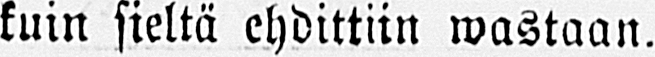kuin sieltä ehdittiin wastaan.
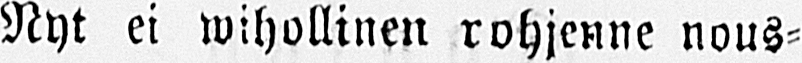Nyt ei wihollinen rohjenne nous-
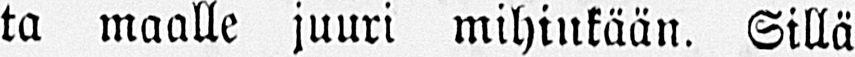ta maalle juuri mihinkään. Sillä
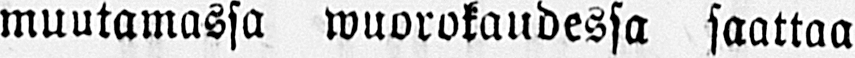muutamassa wuorokaudessa saattaa
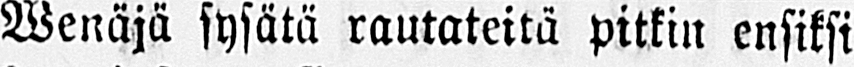Wenäjä sysätä rautateitä pitkin ensiksi
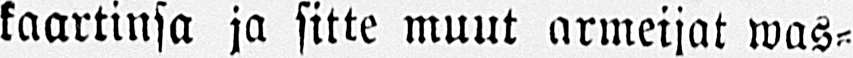kaartinsa ja sitte muut armeijat was-
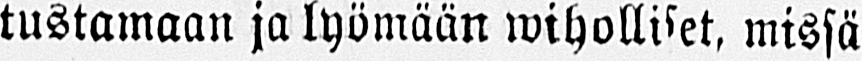tustamaan ja lyömään wiholliset, missä
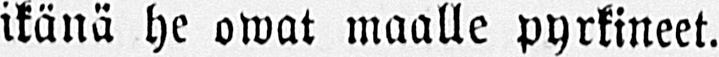ikänä he owat maalle pyrkineet.
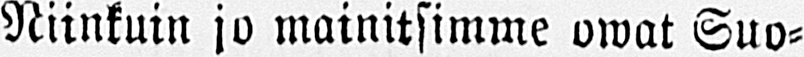Niinkuin jo mainitsimme owat Suo-
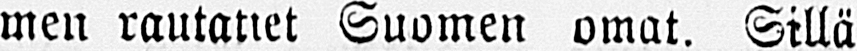men rautatiet Suomen owat. Sillä
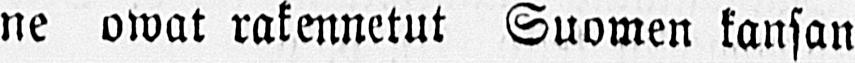ne owat rakennetut Suomen kansan
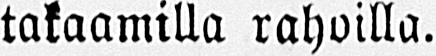takaamilla rahoilla.
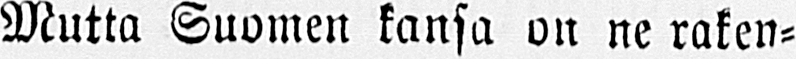Mutta Suomen kansa on ne raken-
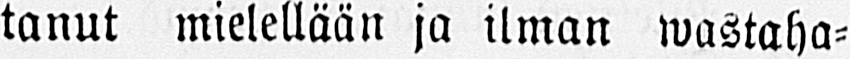tanut mielellään ja ilman wastaha-
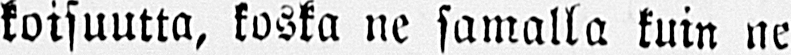koisuutta, koska ne samalla kuin ne o-
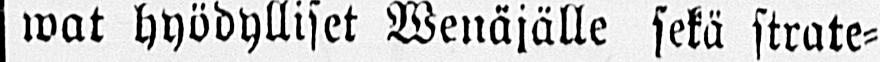wat hyödylliset Wenäjälle sekä strate-
